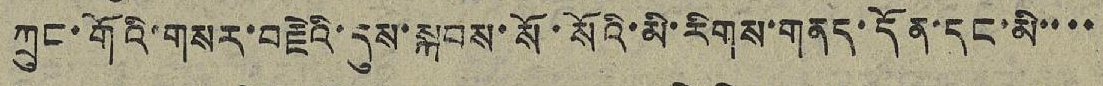ཀྲུང་གོའི་གསར་བརྗེའི་དུས་སྐབས་སོ་སོའི་མི་རིགས་གནད་དོན་དང་མི་་་་
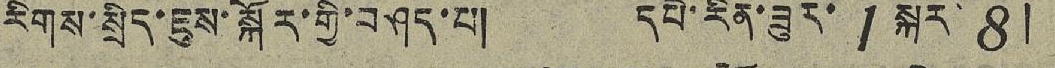རིགས་སྲིད་ཇུས་སྐོར་གྱི་བཤད་པ། དཔེ་རིན་ཟུར་ 1 སྐར་ 8།
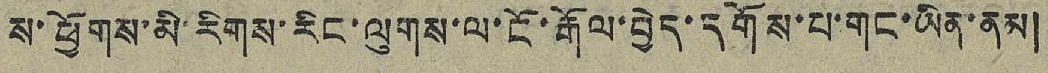ས་ཕྱོགས་མི་རིགས་རིང་ལུགས་ལ་ངོ་རྒོལ་བྱེད་དགོས་པ་གང་ཡིན་ནམ།
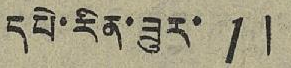དཔེ་རིན་ཟུར་ 1།
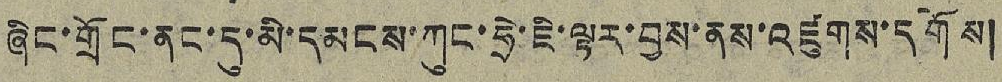ཞིང་གྲོང་ནང་དུ་མི་དམངས་ཀུང་ཧྲེ་ཇི་ལྟར་བྱས་ནས་འཛུགས་དགོས།
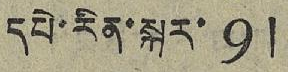དཔེ་རིན་སྐར་ 9།
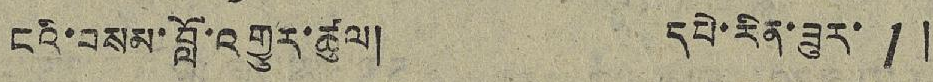ངའི་བསམ་བློ་འགྱུར་ཚུལ། དཔེ་རིན་ཟུར་ 1།
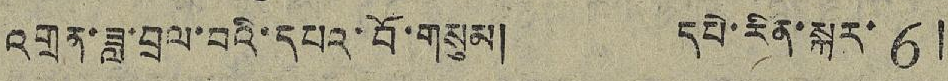འགྲན་ཟླ་བྲལ་བའི་དཔའ་བོ་གསུམ། དཔེ་རིན་སྐར་ 6།
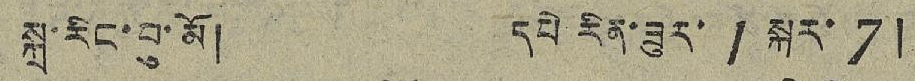སྐྲ་རིང་བུ་མོ། དཔེ་རིན་ཟུར་ 1 སྐར་ 7།
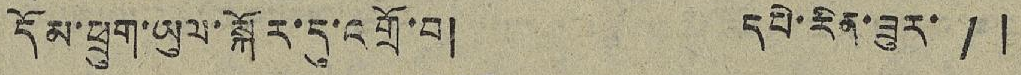དོམ་ཕྲུག་ཡུལ་སྐོར་དུ་འགྲོ་བ། དཔེ་རིན་ཟུར་ 1།
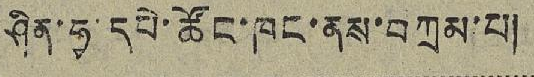ཤིན་ཧྭ་དཔེ་ཚོང་ཁང་ནས་བཀྲམ་པ།
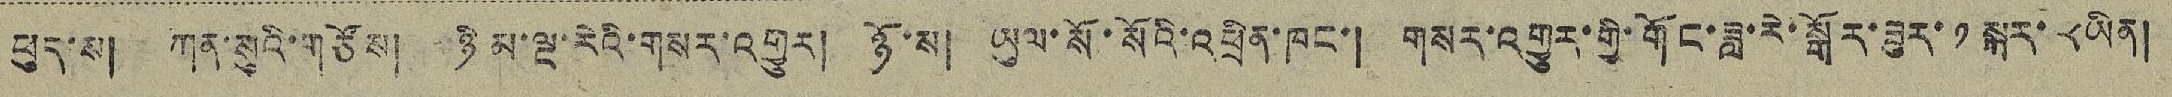ཕུད་ས། ཀན་སུའི་གཙོས། ཉི་མ་ལྔ་རེའི་གསར་འགྱུར། ཉོ་ས། ཡུལ་སོ་སོའི་འཕྲིན་ཁང་། གསར་འགྱུར་གྱི་གོང་ཟླ་རེ་སྒོར་ཟུར་ ༡ སྐར་ ༨ ཡིན།
